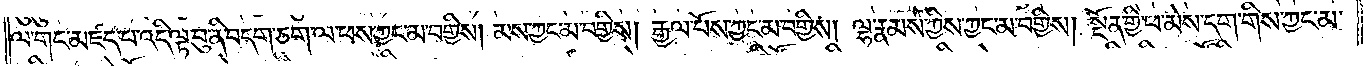ལ་གང་མཛད་པ་འདི་ལྟ་བུ་ནི་བདག་ཅག་ལ་ཕས་ཀྱང་མ་བགྱིས། མས་ཀྱང་མ་བགྱིས། རྒྱལ་པོས་ཀྱང་མ་བགྱིས། ལྷ་རྣམས་ཀྱིས་ཀྱང་མ་བགྱིས། སྔོན་གྱི་ཕ་མེས་དག་གིས་ཀྱང་མ་
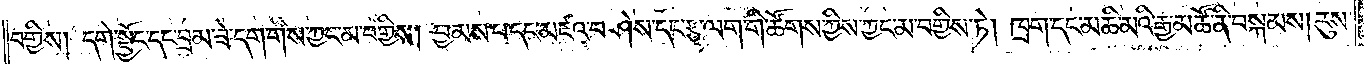བགྱིས། དགེ་སྦྱོང་དང་བྲམ་ཟེ་དག་གིས་ཀྱང་མ་བགྱིས། བྱམས་པ་དང་མཛའ་བཤེས་དང་རྩ་ལག་གི་ཚོགས་ཀྱིས་ཀྱང་མ་བགྱིས་ཏེ། ཁྲག་དང་མཆི་མའི་རྒྱ་མཚོ་ནི་བསྐམས། རུས་
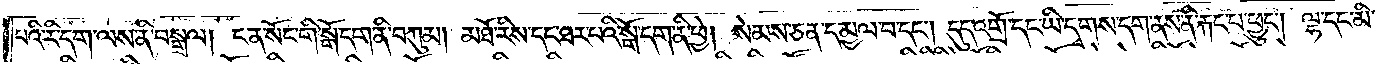པའི་རི་དག་ལས་ནི་བསྒྲལ། ངན་སོང་གི་སྒོ་དག་ནི་བཀུམ། མཐོ་རིས་དང་ཐར་པའི་སྔོ་དག་ནི་ཕྱེ། སེམས་ཅན་དམྱལ་བ་དང༌། དུད་འགྲོ་དང་ཡི་དྭགས་དག་ནས་ནི་རྐང་པ་ཕྱུང༌། ལྷ་དང་མི་
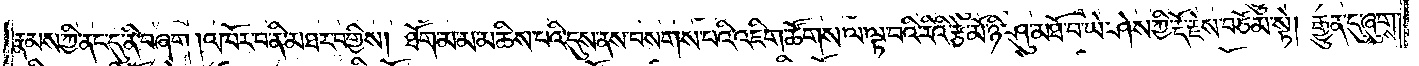རྣམས་ཀྱི་ནང་དུ་ནི་བཞག །འཁོར་བ་ནི་མཐར་བགྱིས། ཐོག་མ་མ་མཆིས་པའི་དུས་ནས་བསགས་པའི་འཇིག་ཚོགས་ལ་ལྟ་བའི་རིའི་རྩེ་མོ་ཉི་ཤུ་མཐོ་བ་ཡེ་ཤེས་ཀྱི་རྡོ་རྗེས་བཅོམ་སྟེ། རྒྱུན་དུ་ཞུགས་
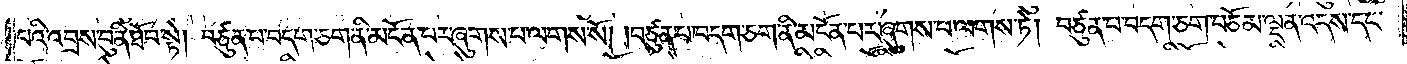པའི་འབྲས་བུ་ནི་ཐོབ་སྟེ། བཙུན་པ་བདག་ཅག་ནི་མངོན་པར་ཞུགས་པ་ལགས་སོ། །བཙུན་པ་བདག་ཅག་ནི་མངོན་པར་ཞུགས་པ་ལགས་ཏེ། བཙུན་པ་བདག་ཅག་བཅོམ་ལྡན་འདས་དང་
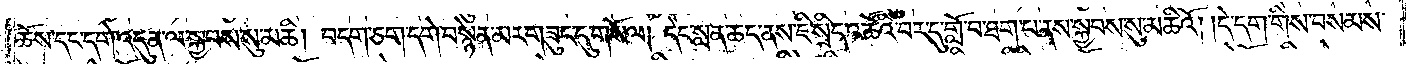ཆོས་དང་དགེ་འདུན་ལ་སྐྱབས་སུ་མཆི། བདག་ཅག་དགེ་བསྙེན་མར་གཟུང་དུ་གསོལ། དེང་སླན་ཆད་ནས་ཇི་སྲིད་འཚོའི་བར་དུ་གློ་བ་ཐག་པ་ནས་སྐྱབས་སུ་མཆིའོ། །དེ་དག་གིས་བསམས་
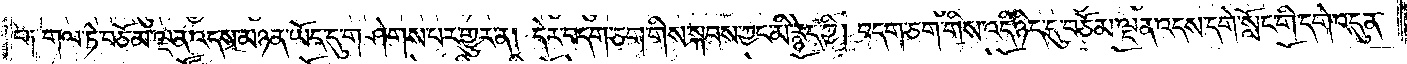པ༑ གལ་ཏེ་བཅོམ་ལྡན་འདས་མཉན་ཡོད་དུ་གཤེགས་པར་གྱུར་ན། དེར་བདག་ཅག་གིས་སྐབས་ཀྱང་མི་རྙེད་ཀྱི། བདག་ཅག་གིས་འདི་ཉིད་དུ་བཅོམ་ལྡན་འདས་དགེ་སློང་གི་དགེ་འདུན་
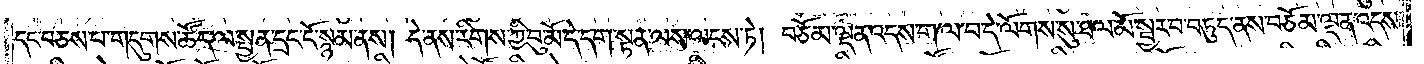དང་བཅས་པ་གདུགས་ཚོད་ལ་སྤྱན་དྲང་ངོ་སྙམ་ནས། དེ་ནས་རིགས་ཀྱི་བུ་མོ་དེ་དག་སྟན་ལས་ལངས་ཏེ། བཅོམ་ལྡན་འདས་ག་ལ་བ་དེ་ལོགས་སུ་ཐལ་མོ་སྦྱར་བ་བཏུད་ནས་བཅོམ་ལྡན་འདས་
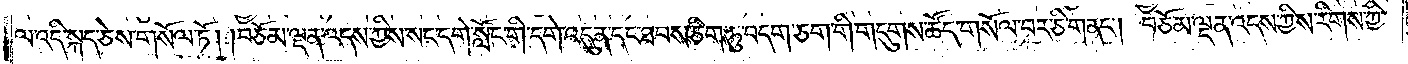ལ་འདི་སྐད་ཅེས་གསོལ་ཏོ། །བཅོམ་ལྡན་འདས་ཀྱིས་སང་དགེ་སློང་གི་དགེ་འདུན་དང་ཐབས་ཅིག་ཏུ་བདག་ཅག་གི་གདུགས་ཚོད་གསོལ་བར་ཅི་གནང༌། བཅོམ་ལྡན་འདས་ཀྱིས་རིགས་ཀྱི་
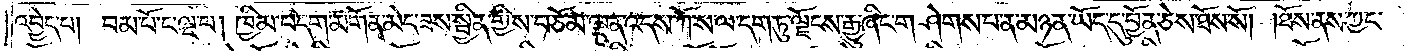འབྱེད་པ། བམ་པོ་ང་ལྔ་པ། ཁྱིམ་བདག་མགོན་མེད་ཟས་སྦྱིན་གྱིས་བཅོམ་ལྡན་འདས་ཀོ་ས་ལ་དག་ཏུ་ལྗོངས་རྒྱུ་ཞིང་གཤེགས་པ་ན་མཉན་ཡོད་དུ་བྱོན་ཅེས་ཐོས་སོ། །ཐོས་ནས་ཀྱང་
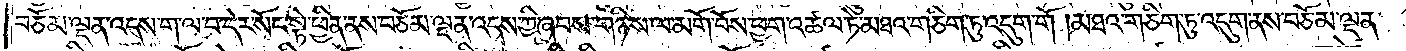བཅོམ་ལྡན་འདས་ག་ལ་བ་དེར་སོང་སྟེ་ཕྱིན་ནས་བཅོམ་ལྡན་འདས་ཀྱི་ཞབས་གཉིས་ལ་མགོ་བོས་ཕྱག་འཚལ་ཏེ་མཐའ་གཅིག་ཏུ་འདུག་གོ །མཐའ་གཅིག་ཏུ་འདུག་ནས་བཅོམ་ལྡན་
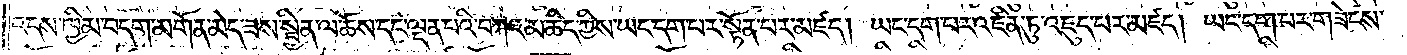འདས་ཁྱིམ་བདག་མགོན་མེད་ཟས་སྦྱིན་ལ་ཆོས་དང་ལྡན་པའི་བཀའ་མཆིད་ཀྱིས་ཡང་དག་པར་སྟོན་པར་མཛད། ཡང་དག་པར་འཛིན་ཏུ་འཇུད་པར་མཛད། ཡང་དག་པར་གཟེངས་
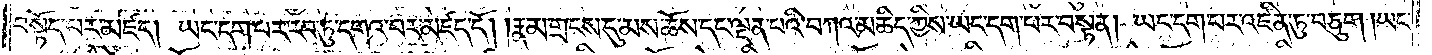བསྟོད་པར་མཛད། ཡང་དག་པར་རབ་ཏུ་དགའ་བར་མཛད་དོ། །རྣམ་གྲངས་དུ་མས་ཆོས་དང་ལྡན་པའི་བཀའ་མཆིད་ཀྱིས་ཡང་དག་པར་བསྟན། ཡང་དག་པར་འཛིན་ཏུ་བཅུག །ཡང་
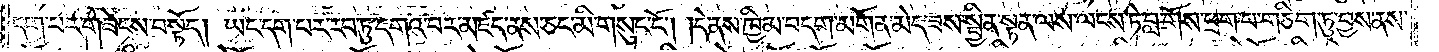དག་པར་གཟེངས་བསྟོད། ཡང་དག་པར་རབ་ཏུ་དགའ་བར་མཛད་ནས་ཅང་མི་གསུང་ངོ༌། །དེ་ནས་ཁྱིམ་བདག་མགོན་མེད་ཟས་སྦྱིན་སྟན་ལས་ལངས་ཏེ་བླ་གོས་ཕྲག་པ་གཅིག་ཏུ་བྱས་ནས་
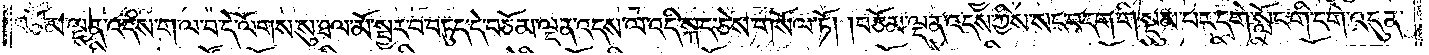བཅོམ་ལྡན་འདས་ག་ལ་བ་དེ་ལོགས་སུ་ཐལ་མོ་སྦྱར་བ་བཏུད་དེ་བཅོམ་ལྡན་འདས་ལ་འདི་སྐད་ཅེས་གསོལ་ཏོ། །བཅོམ་ལྡན་འདས་ཀྱིས་སང་བདག་གི་སྡུམ་པར་དགེ་སློང་གི་དགེ་འདུན་
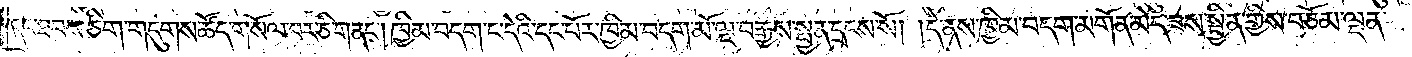དང་ཐབས་ཅིག་གདུགས་ཚོད་གསོལ་བར་ཅི་གནང༌། ཁྱིམ་བདག་ང་དེའི་དང་པོར་ཁྱིམ་བདག་མོ་ལྔ་བརྒྱས་སྤྱན་དྲངས་སོ། །དེ་ནས་ཁྱིམ་བདག་མགོན་མེད་ཟས་སྦྱིན་གྱིས་བཅོམ་ལྡན་
